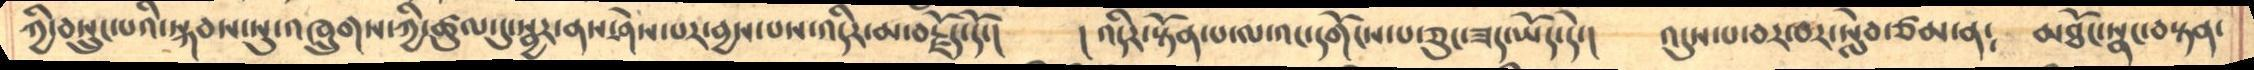ཀྱི་བསྲུང་པའི་སྐབས་སུ་འཁྲུགས་ཀྱི་ཚུལ་དུ་སྦྱར་ནས་ཤེས་པར་བྱས་པས་འདིར་མ་བརྗོད་དོ་།   །འདིར་སྟོན་པ་ལ་འང་དགོངས་པ་ཅུང་ཟད་ཡོད་དེ་།   འདུས་པ་བར་པར་སླེབ་ཙམ་ན༴   མཐོང་སྣང་བསྟན་
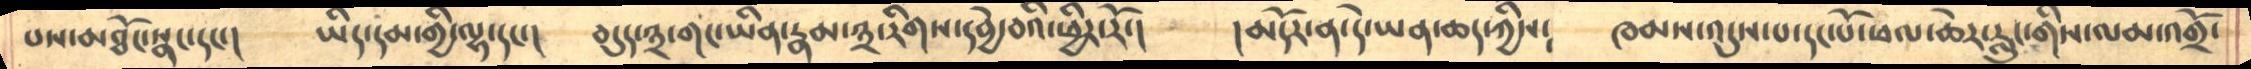བས་མཐོང་སྣང་དང་།   ཡིད་དམ་གྱི་ལྷ་དང་།    བདུད་༣་གང་ཡིན་རྣམ་༣་རིགས་དབྱེ་བའི་ཕྱིར་རོ་།    །མདོར་ན་དེ་ཡན་ཆད་ཀྱིས༴   ཁམས་འདུས་པ་དང་པོ་ཕལ་ཆེར་རླུང་གིས་ལམ་འགྲོ་
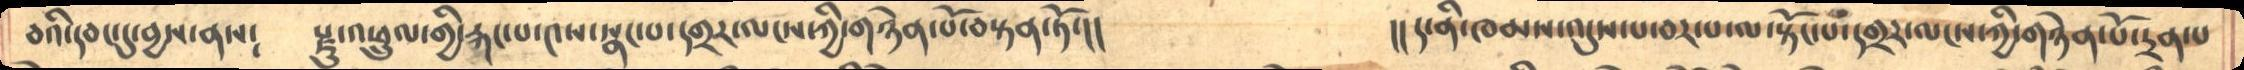བའི་དབང་དུ་བྱས་ནས༴     རྫུ་འཕྲུལ་གྱི་རྐང་པ་༤ས་སྣང་པ་དགྲར་ལངས་ཀྱི་གཉེན་པོ་བསྟན་ཏོ་།།             །།ད་ནི་ཁམས་འདུས་པ་བར་པ་ལ་སྟོང་པ་དགྲར་ལངས་ཀྱི་གཉེན་པོ་དྲན་པ
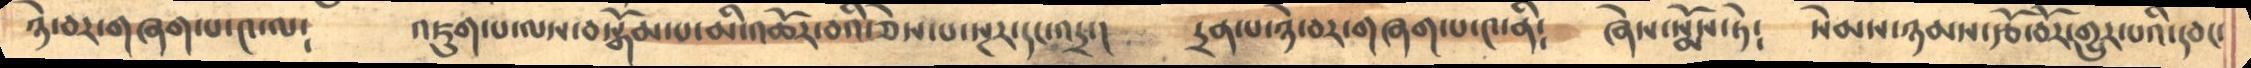ཉེ་བར་གཞག་པ་༤་ལ༴     འཇུག་པ་ལས་བསྒོམ་པ་མི་འཆོར་བའི་ཅེས་པ་སྔར་དང་འདྲ་།      དྲན་པ་ཉེ་བར་གཞག་པ་༤་ནི༴    ཞེས་སྨོས་ཏེ༴   སེམས་ཉམས་རྩོ་བོར་གྱུར་པའི་དབང་
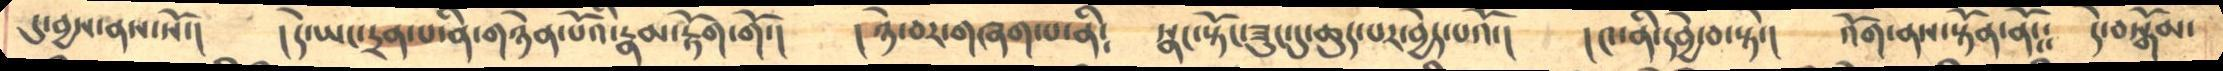དུ་བྱས་ནས་སོ་།       །དེ་ཡང་དྲན་པ་ནི་གཉེན་པོའི་རྣམ་རྟོག་གོ་།    ། ཉེ་བར་གཞག་པ་ནི༴   སྣང་སྟོང་ཟུང་ཆུད་པར་བྱེད་པའོ་།   །༤་ནི་དབྱེ་བ་སྟེ་།   འོག་ནས་སྟོན་ནོ༴༴   དེ་བསྒོམ་
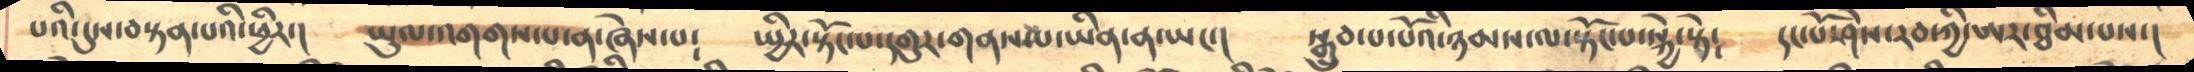པའི་དུས་བསྟན་པའི་ཕྱིར་།   ཡུལ་འགགས་པ་ན་ཞེས་པ༴     སྤྱིར་སྟོང་པ་དགུར་གནས་པ་ཡིན་ན་ཡང་།     སྒྲུབ་པ་པོའི་ཉམས་ལ་སྟོང་པ་སྐྱེ་སྟེ༴     དང་པོ་ཤེས་རབ་ཀྱི་ཨར་ཐིམ་པས་།
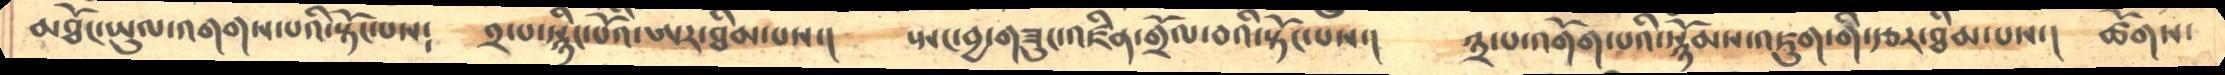མཐོང་ཡུལ་འགགས་པའི་སྟོང་པས༴    ༢་པ་སྙིང་པོའི་ཨར་ཐིམ་པས་།   སྤང་བྱ་གཟུང་འཛིན་གྲོལ་བའི་སྟོང་པས་།    ༣་པ་འགོག་པའི་སྙོམས་འཇུག་གི་རྩར་ཐིམ་པས་།    ཚོགས་
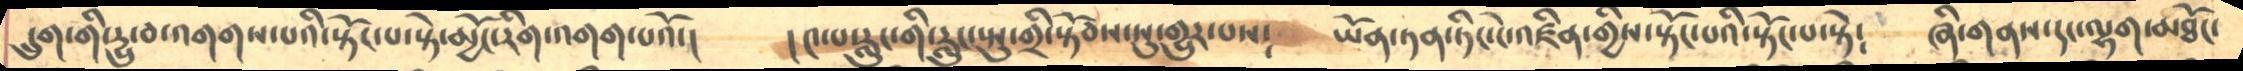དྲུག་གི་དྱུ་བ་འགགས་པའི་སྟོང་པ་སྟེ་མྱོང་རིག་འགག་པའོ་།    །༤་པ་རླུང་གི་རླུང་སྤུ་གྲི་སྟོབས་སུ་གྱུར་པས༴    ཡོན་ཏན་ཏིང་ངེ་འཛིན་གྱིས་སྟོང་པའི་སྟོང་པ་སྟེ༴    ཞི་གནས་དང་ལྷག་མཐོང་
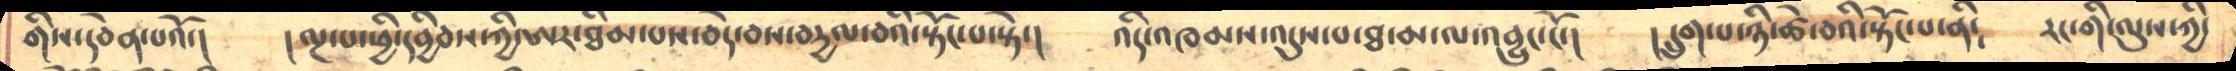གིས་དབེན་པའོ་།    །ལྔ་པ་ཕྱི་དབྱིབས་ཀྱི་ཨར་ཐིམ་་པས་བདེ་བས་བདྱལ་བའི་སྟོང་པ་སྟེ་།    འདི་འཁམས་འདུས་པ་ཐ་མ་ལ་འབྱུང་ངོ་།     ། དྲུག་པ་ཉི་ཚེ་བའི་སྟོང་པ་ནི༴      རང་གི་ལུས་ཀྱི་
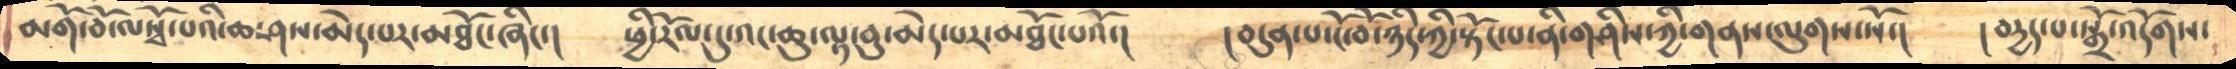མགོ་བོ་ལསྭོ་པའི་ཆ་ཤས་མེད་པར་མཐོང་ཞིང་།    ཕྱི་རོལ་དུ་འང་ཆུ་ལྟ་བུ་མེད་པར་མཐོང་པའོ་།    །བདུན་པ་ངོ་བོ་ཉིད་ཀྱི་སྟོང་པ་ནི་གཤིས་ཀྱི་གནས་ལུགས་སོ་།    །བདྱད་པ་སྒྲོ་འདོགས་
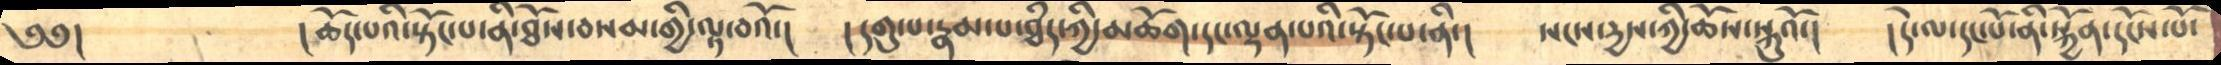༄༅།              །ཆོད་པའི་སྟོང་པ་ནི་ཐོས་བསམ་གྱི་ལྟ་བའོ་།    ། དགུ་པ་རྣམ་པ་ཐཾད་ཀྱི་མཆོག་དང་ལྡན་པའི་སྟོང་པ་ནི་།   སངས་དྱས་ཀྱི་ཆོས་སྐུའོ་།    །དེ་ལ་དང་པོ་ནི་སྐྱོན་དོངས་པོ་
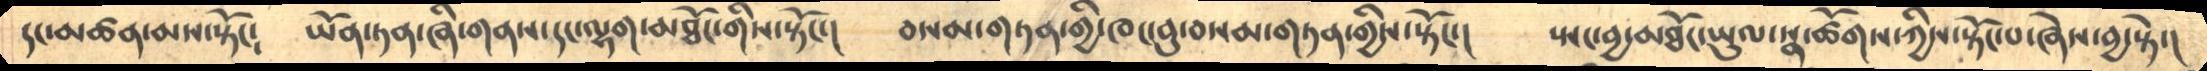རང་མཚན་མས་སྟོང༴     ཡོན་ཏན་ཞི་གནས་དང་ལྷག་མཐོང་གིས་སྟོང་།      བསམ་གཏན་གྱི་ཁང་བུ་བསམ་གཏན་གྱིས་སྟོང་།      སྤང་བྱ་མཐོང་ཡུལ་སྣ་ཚོགས་ཀྱིས་སྟོང་པ་ཞེས་བྱ་སྟེ་།
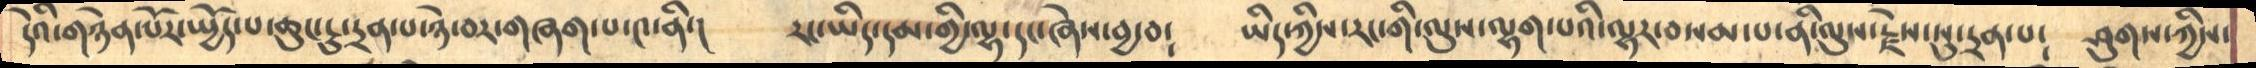དེའི་གཉེན་པོར་སྤྱོད་པ་ཆུང་ངུ་དྲན་པ་ཉེ་བར་གཞག་པ་༤་ནི་།     རང་ཡིད་དམ་གྱི་ལྷ་དང་ཞེས་བྱ་བ༴    ཡིད་ཀྱིས་རང་གི་ལུས་ལྷག་པའི་ལྷར་བསམ་པ་ནི་ལུས་རྗེས་སུ་དྲན་པ༴     ཤུགས་ཀྱིས་
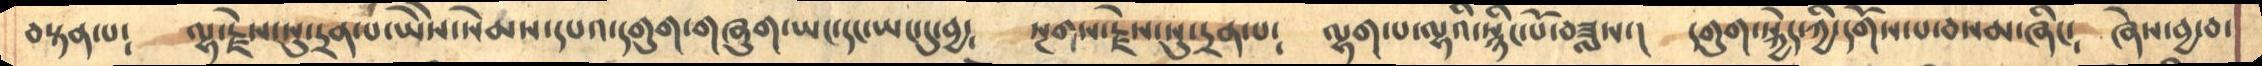བསྟན་པ༴    ལྷ་རྗེས་སུ་དྲན་པ་ཡཻས་སེམས་དཔའ་དགུག་གཞུག་ཡང་དང་ཡང་དུ་བྱ༴     སྔགས་རྗེས་སུ་དྲན་པ༴   ལྷག་པ་ལྷའི་སྙིང་པོ་བཟླས་།   དགུག་སྐྱེད་ཀྱི་དགོས་པ་བསམ་ཞིང༴   ཞེས་བྱ་བ་
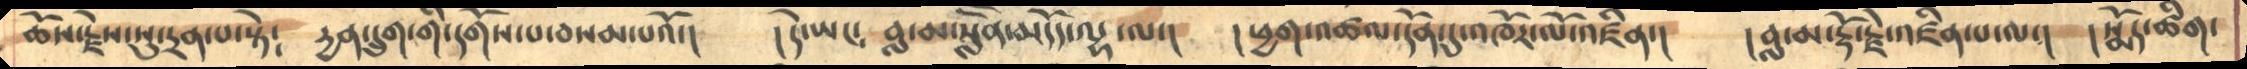ཆོས་རྗེས་སུ་དྲན་པ་སྟེ༴     དྱན་དྲུག་གི་དགོས་པ་བསམ་པའོ་།     །དེ་ཡང༴  བླ་མ་སློཽན་མདོད་ལྷ་ལ་།    ། ཕྱག་འཚལ་དོན་དུ་འཁོར་ལོ་འཛིན་།   ། བླ་མ་རྡོ་རྗེ་འཛིན་པ་ལ་།    །སྨོད་ཚིག་
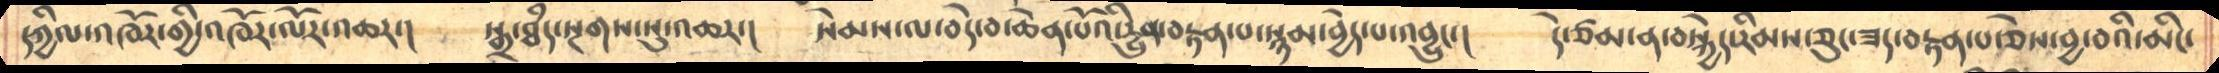དཀྱིལ་འ་ཁོར་གྱི་འཁོར་ལོར་འཆར་།    སྒྲ་ཐཾད་སྔགས་སུ་འཆར་།    སེམས་ལ་བདེ་བ་ཆེན་པོའི་དྱུན་བརྟན་པ་སྙམ་བྱེད་པ་འབྱུང་།      དེ་ཙམ་ན་བསྐྱེད་རིམས་ཅུང་ཟད་བརྟན་པ་ཅེས་བྱ་བའི་མིང་
